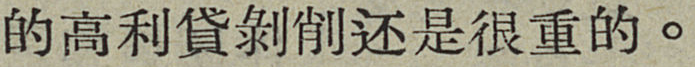的高利貸剝削还是很重的。
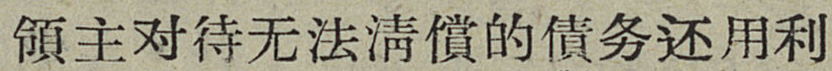領主对待无法清償的債务还用利
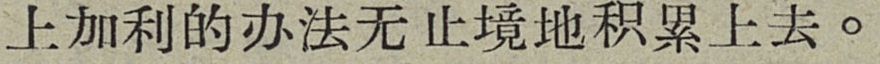上加利的办法无止境地积累上去。
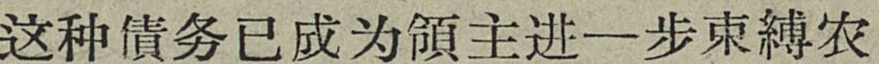这种債务已成为領主进一步束縛农
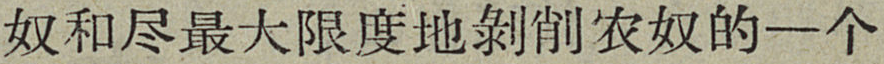奴和尽最大限度地剝削农奴的一个
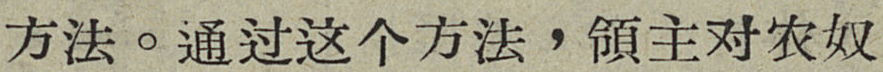方法。通过这个方法，領主对农奴
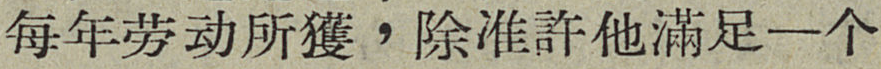每年劳动所獲，除准許他滿足一个
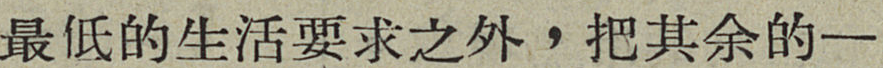最低的生活要求之外，把其余的一
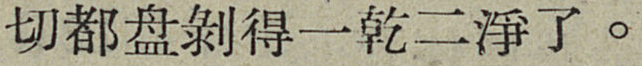切都盘剝得一乾二淨了。
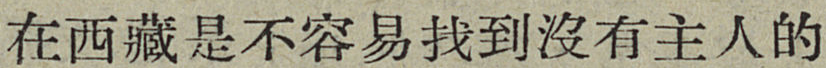在西藏是不容易找到沒有主人的
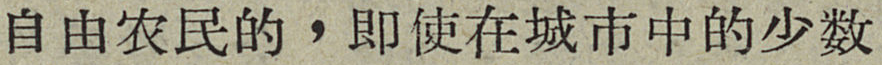自由农民的，即使在城市中的少数
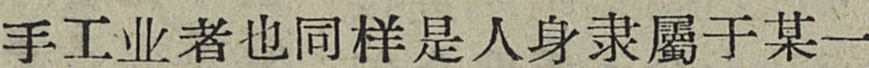手工业者也同样是人身隶屬于某一
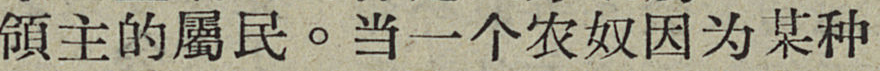領主的屬民。当一个农奴因为某种
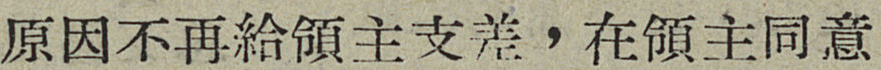原因不再給領主支差，在領主同意
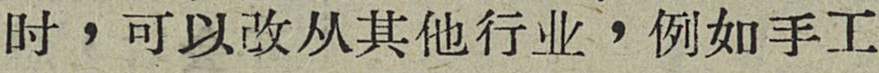时，可以改从其他行业，例如手工
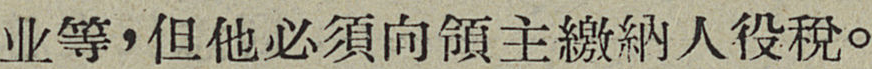业等，但他必須向領主繳納人役稅。
